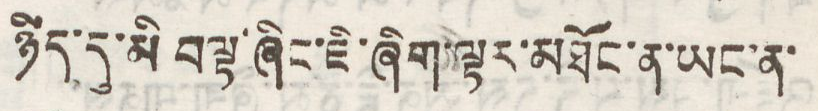ཉིད་དུ་མི བལྟ་ཞིང་ཇི་ཞིག་ལྟར་མཐོང་ན་ཡང་ན་
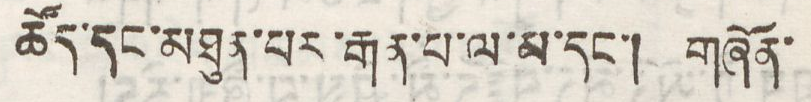ཚོད་དང་མཐུན་པར་རྒད་པ་ལ་མ་དང་། གཞོན་
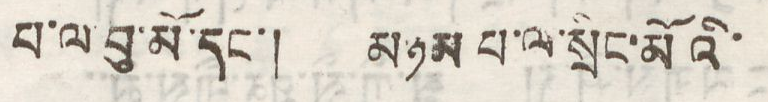པ་ལ་བུ་མོ་དང་། མཉམ པ་ལ་སྲིང་མོའོ་
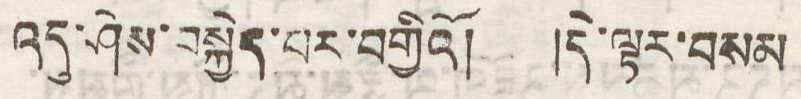འདུ་ཤེས་བསྐྱེད་པར་བགྱིའི། །དེ་ལྟར་བསམ
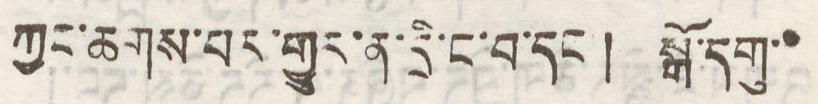ཀྱང་ཆགས་པར་གྱུར་ན་དྲི་ང་བ་དང། སྒོ་དགུ་་
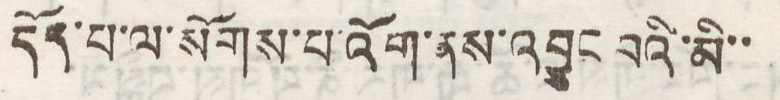དོད་པ་ལ་སོགས་པ་འོག་ནས་འབྱུང བའི་མི་་
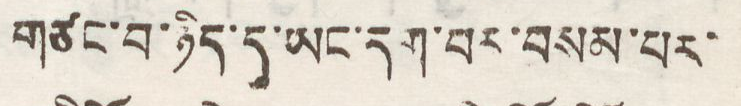གཙང་བ་ཉིད་དུ་ཡང་དག་བར་བསམ་པར་
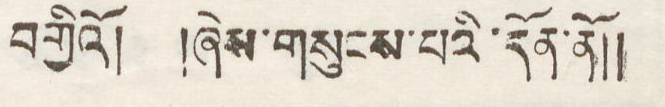བགྱིའོ། །ཞེས་གསུངས་པའི་དོན་ནོ།།
